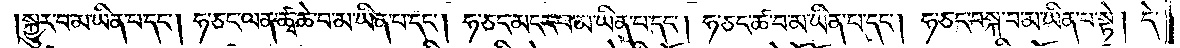སྐྱུར་བ་མ་ཡིན་པ་དང༌། ཧ་ཅང་ལན་ཚྭ་ཆེ་བ་མ་ཡིན་པ་དང༌། ཧ་ཅང་མངར་བ་མ་ཡིན་པ་དང༌། ཧ་ཅང་ཚ་བ་མ་ཡིན་པ་དང༌། ཧ་ཅང་བསྐ་བ་མ་ཡིན་པ་སྟེ། དེ་
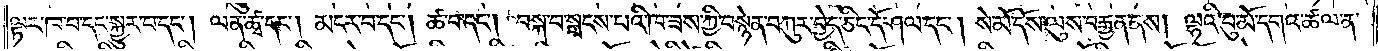ལྟར་ཁ་བ་དང་སྐྱུར་བ་དང༌། ལན་ཚྭ་དང༌། མངར་བ་དང༌། ཚ་བ་དང༌། བསྐ་བ་སྤངས་པའི་ཁ་ཟས་ཀྱི་བསྙེན་བཀུར་བྱེད་ཅིང་དོ་ཤལ་དང༌། སེ་མོ་དོས་ལུས་བརྒྱན་ནས། ལྷའི་བུ་མོ་དགའ་ཚལ་ན་
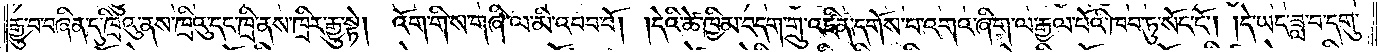རྒྱུ་བ་བཞིན་དུ་ཁྲིའུ་ནས་ཁྲིའུ་དང་ཁྲི་ནས་ཁྲིར་རྒྱུ་སྟེ། འོག་གིས་གཞི་ལ་མི་འབབ་བོ། །དེའི་ཚེ་ཁྱིམ་བདག་གྲུ་འཛིན་དགོས་པ་འགའ་ཞིག་ལ་རྒྱལ་པོའི་ཁབ་ཏུ་སོང་ངོ༌། །དེ་ཡང་ཟླ་བ་དགུ་
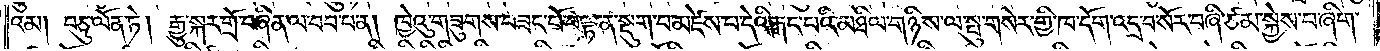འམ། བཅུ་ལོན་ཏེ། རྒྱུ་སྐར་གྲོ་བཞིན་ལ་བབ་པ་ན། ཁྱེའུ་གཟུགས་བཟང་པོ་བལྟ་ན་སྡུག་པ་མཛེས་པ་དེའི་རྐང་པའི་མཐིལ་གཉིས་ལ་སྤུ་གསེར་གྱི་ཁ་དོག་འདྲ་བ་སོར་བཞི་ཙམ་སྐྱེས་པ་ཞིག་
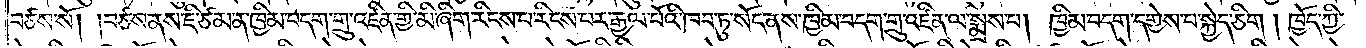བཙས་སོ། །བཙས་ནས་ཇི་ཙམ་ན་ཁྱིམ་བདག་གྲུ་འཛིན་གྱི་མི་ཞིག་རིངས་པ་རིངས་པར་རྒྱལ་པོའི་ཁབ་ཏུ་སོང་ནས་ཁྱིམ་བདག་གྲུ་འཛིན་ལ་སྨྲས་པ། ཁྱིམ་བདག་དགྱེས་པ་སྐྱེད་ཅིག །ཁྱོད་ཀྱི་
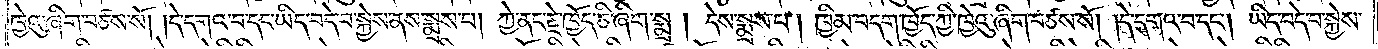ཁྱེའུ་ཞིག་བཅས་སོ། །དེ་དགའ་བ་དང་ཡིད་བདེ་བ་སྐྱེས་ནས་སྨྲས་པ། ཀྱེ་ནང་རྗེ་ཁྱོད་ཅི་ཞིག་སྨྲ། དེས་སྨྲས་པ། ཁྱིམ་བདག་ཁྱོད་ཀྱི་ཁྱེའུ་ཞིག་བཙས་སོ། །དེ་དགའ་བ་དང༌། ཡིད་བདེ་བ་སྐྱེས་
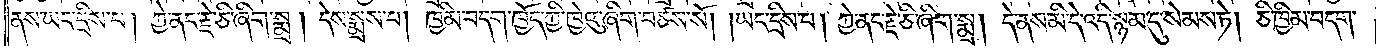ནས་ཡང་དྲིས་པ། ཀྱེ་ནང་རྗེ་ཅི་ཞིག་སྨྲ། དེས་སྨྲས་པ། ཁྱིམ་བདག་ཁྱོད་ཀྱི་ཁྱེའུ་ཞིག་བཙས་སོ། །ཡང་དྲིས་པ། ཀྱེ་ནང་རྗེ་ཅི་ཞིག་སྨྲ། དེ་ནས་མི་དེ་འདི་སྙམ་དུ་སེམས་ཏེ། ཅི་ཁྱིམ་བདག་
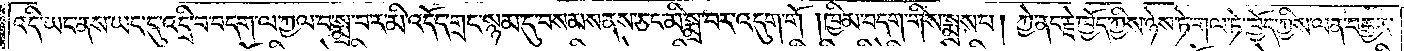འདི་ཡང་ནས་ཡང་དུ་འདྲི་བ་བདག་ལ་ཀྱལ་བ་སྨྲ་བར་མི་འདོད་གྲང་སྙམ་དུ་བསམས་ནས་ཅང་མི་སྨྲ་བར་འདུག་གོ །ཁྱིམ་བདག་གིས་སྨྲས་པ། ཀྱེ་ནང་རྗེ་ཁྱོད་ཀྱིས་ཉེས་ཏེ་གལ་ཏེ་ཁྱོད་ཀྱིས་ལན་བརྒྱར་
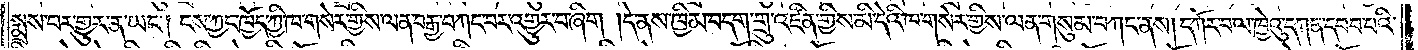སྨྲས་པར་གྱུར་ན་ཡང༌། ངས་ཀྱང་ཁྱོད་ཀྱི་ཁ་གསེར་གྱིས་ལན་བརྒྱ་བཀང་བར་འགྱུར་བ་ཞིག །དེ་ནས་ཁྱིམ་བདག་གྲུ་འཛིན་གྱིས་མི་དེའི་ཁ་གསེར་གྱིས་ལན་གསུམ་བཀང་ནས། དཀོར་བ་ལ་ཁྱེའུ་དཀན་དབབ་པའི་
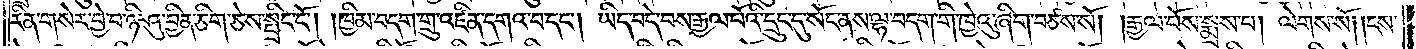རིན་གསེར་བྱེ་བ་ཉི་ཤུ་བྱིན་ཅིག་ཅེས་སྤྲིང་ངོ༌། །ཁྱིམ་བདག་གྲུ་འཛིན་དགའ་བ་དང༌། ཡིད་བདེ་བས་རྒྱལ་པོའི་དྲུང་དུ་སོང་ནས་ལྷ་བདག་གི་ཁྱེའུ་ཞིག་བཙས་སོ། །རྒྱལ་པོས་སྨྲས་པ། ལེགས་སོ། །ངས་
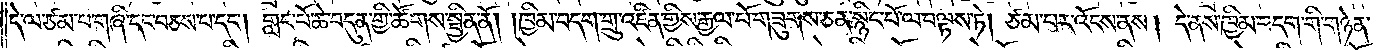དེ་ལ་ཙམ་པ་གཞི་དང་བཅས་པ་དང༌། གླང་པོ་ཆེ་བདུན་གྱི་ཚོགས་སྦྱིན་ནོ། །ཁྱིམ་བདག་གྲུ་འཛིན་གྱིས་རྒྱལ་པོ་གཟུགས་ཅན་སྙིང་པོ་ལ་བལྟས་ཏེ། ཙམ་བར་འོངས་ནས། དེ་ནས་ཁྱིམ་བདག་གི་གཉེན་
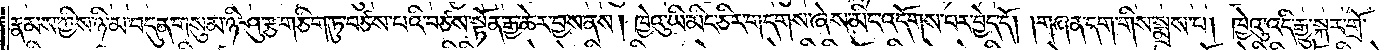རྣམས་ཀྱིས་ཉི་མ་བདུན་གསུམ་ཉི་ཤུ་རྩ་གཅིག་ཏུ་བཙས་པའི་བཙས་སྟོན་རྒྱ་ཆེར་བྱས་ནས། ཁྱེའུ་ཡི་མིང་ཅིར་གདགས་ཞེས་མིང་འདོགས་པར་བྱེད་དོ། །གཞན་དག་གིས་སྨྲས་པ། ཁྱེའུ་འདི་རྒྱུ་སྐར་གྲོ་
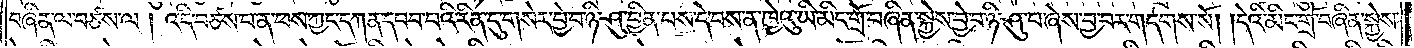བཞིན་ལ་བཙས་ལ། འདི་བཙས་པ་ན་ཕས་ཀྱང་དཀན་དབབ་པའི་རིན་དུ་གསེར་བྱེ་བ་ཉི་ཤུ་བྱིན་པས་དེ་བས་ན་ཁྱེའུ་ཡི་མིང་གྲོ་བཞིན་སྐྱེས་བྱེ་བ་ཉི་ཤུ་པ་ཞེས་བྱ་བར་གདགས་སོ། །དེའི་མིང་གྲོ་བཞིན་སྐྱེས་
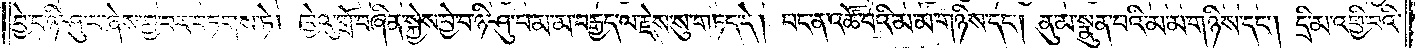བྱེ་བ་ཉི་ཤུ་པ་ཞེས་བྱ་བར་བཏགས་ཏེ། ཁྱེའུ་གྲོ་བཞིན་སྐྱེས་བྱེ་བ་ཉི་ཤུ་པ་མ་མ་བརྒྱད་ལ་རྗེས་སུ་གཏད་དེ། པང་ན་འཚོ་བའི་མ་མ་གཉིས་དང༌། ནུ་མ་སྣུན་པའི་མ་མ་གཉིས་དང༌། དྲི་མ་འཕྱི་བའི་
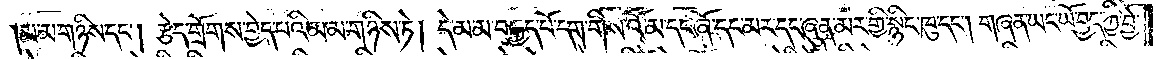།མ་མ་གཉིས་དང༌། རྩེད་གྲོགས་བྱེད་པའི་མ་མ་གཉིས་ཏེ། དེ་མ་མ་བརྒྱད་པོ་དག་གིས་འོ་མ་དང་ཞོ་དང་མར་དང་ཞུན་མར་གྱི་སྙིང་ཁུ་དང༌། གཞན་ཡང་ཡོ་བྱད་ཀྱི་བྱེ་
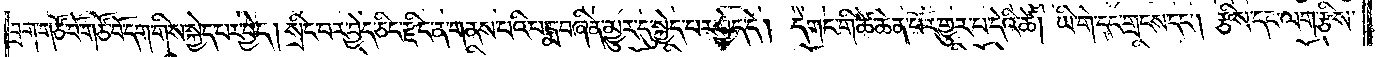བྲག་གཙོ་བོ་གཙོ་བོ་དག་གིས་སྐྱེད་པར་བྱེད། སྲིང་པར་བྱེད་ཅིང་རྫིང་ན་གནས་པའི་པདྨ་བཞིན་མྱུར་དུ་སྐྱེད་པར་བྱེད་དེ། དེ་གང་གི་ཚེ་ཆེན་པོར་གྱུར་པ་དེའི་ཚེ། ཡི་གེ་དང་གྲངས་དང༌། རྩིས་དང་ལག་རྩིས་
